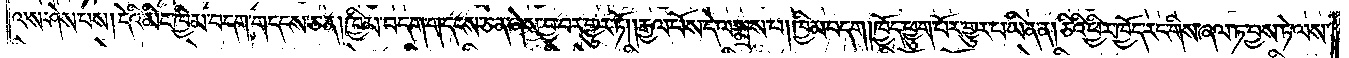ལས་ཤེས་པས། དེའི་མིང་ཁྱིམ་བདག་གདངས་ཅན། ཁྱིམ་བདག་གདངས་ཅན་ཞེས་བྱ་བར་གྱུར་ཏོ། །རྒྱལ་པོས་དེ་ལ་སྨྲས་པ། ཁྱིམ་བདག །ཁྱོད་ཕྱུག་པོར་གྱུར་པ་ཡིན་ན། ཅིའི་ཕྱིར་ཁྱོད་རང་གིས་ཞལ་ཏ་བྱས་ཏེ་ལས་
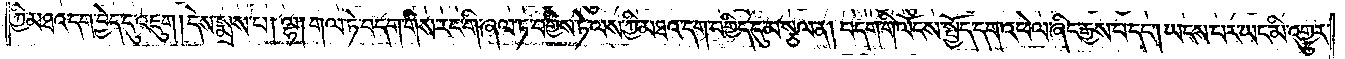ཀྱི་མཐའ་དག་བྱེད་དུ་འཇུག །དེས་སྨྲས་པ། ལྷ། གལ་ཏེ་བདག་གིས་རང་གི་ཞལ་ཏ་བགྱིས་ཏེ་ལས་ཀྱི་མཐའ་དག་བགྱིད་དུ་མ་སྩལ་ན། བདག་གི་ལོངས་སྤྱོད་དག་འཕེལ་ཞིང་རྒྱས་པ་དང༌། ཡངས་པར་ཡང་མི་འགྱུར་
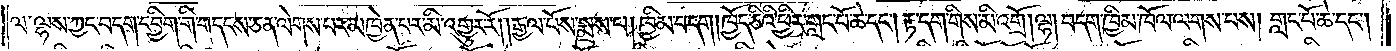ལ་ལྷས་ཀྱང་བདག་དབྱིག་གི་གདངས་ཅན་ལེགས་པར་མཁྱེན་པར་མི་འགྱུར་རོ། །རྒྱལ་པོས་སྨྲས་པ། ཁྱིམ་བདག །ཁྱོད་ཅིའི་ཕྱིར་གླང་པོ་ཆེ་དང༌། རྟ་དག་གིས་མི་འགྲོ། ལྷ། བདག་ཁྱིམ་ཁོལ་ལགས་པས། གླང་པོ་ཆེ་དང༌།
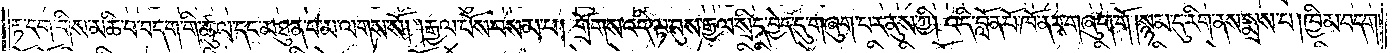རྟ་དག་གིས་མཆི་བ་བདག་གི་ཚུལ་དང་མཐུན་པ་མ་ལགས་སོ། །རྒྱལ་པོས་བསམ་པ། གྲོགས་འདི་ལྟ་བུས་རྒྱལ་སྲིད་བྱེད་དུ་གཞུག་པར་ནུས་ཀྱི། འདི་བློན་པོ་ཁོ་ནར་གཞུག་གོ །སྙམ་དུ་རིག་ནས་སྨྲས་པ། ཁྱིམ་བདག།
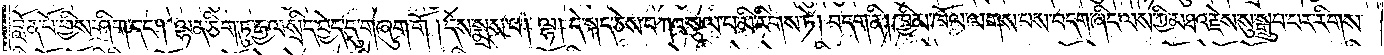བློན་པོ་གྱིས་ཤིག་དང༌། ལྷན་ཅིག་ཏུ་རྒྱལ་སྲིད་བྱེད་དུ་གཞུག་གོ །དེས་སྨྲས་པ། ལྷ། དེ་སྐད་ཅེས་བཀའ་སྩལ་པ་མི་རིགས་ཏེ། བདག་ནི། ཁྱིམ་ཁོལ་ལགས་པས་བདག་ཞིང་ལས་ཀྱི་མཐའ་རྗེས་སུ་སྒྲུབ་པར་རིགས་
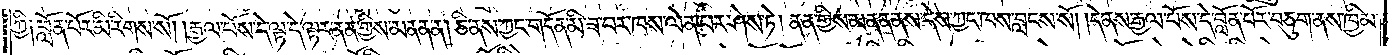ཀྱི༑ བློན་པོར་མི་རིགས་སོ། །རྒྱལ་པོས་དེ་ལྟ་དེ་ལྟར་ནན་གྱིས་མནན་ན། ཅི་ནས་ཀྱང་གདོན་མི་ཟ་བར་ཁས་ལེན་པར་ཤེས་ཏེ། ནན་གྱིས་མནན་ནས་དེས་ཀྱང་ཁས་བླངས་སོ། །དེ་ནས་རྒྱལ་པོས་དེ་བློན་པོར་བཅུག་ནས་ཁྱིམ་
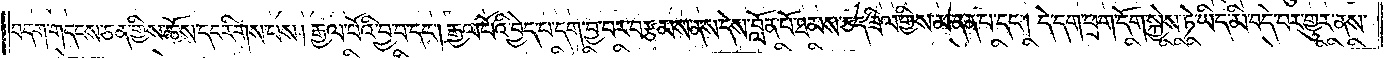བདག་གདངས་ཅན་གྱིས་ཆོས་དང་རིགས་པས། རྒྱལ་པོའི་བྱ་བ་དང༌། རྒྱལ་པོའི་བྱེད་པ་དག་བྱ་བར་བརྩམས་ནས་དེས་བློན་པོ་ཐམས་ཅད་ཟིལ་གྱིས་མནན་པ་དང༌། དེ་དག་ཕྲག་དོག་སྐྱེས་ཏེ་ཉིད་མི་བདེ་བར་གྱུར་ནས་
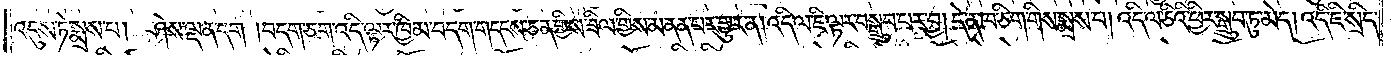འདུས་ཏེ་སྨྲས་པ། ཤེས་ལྡན་དག །བདག་ཅག་འདི་ལྟར་ཁྱིམ་བདག་གདངས་ཅན་གྱིས་ཟིལ་གྱིས་མནན་པར་གྱུར་ན། འདི་ལ་ཇི་ལྟར་བསྒྲུབ་པར་བྱ། དེ་ན་ཁ་ཅིག་གིས་སྨྲས་པ། འདི་ལ་ཅིའི་ཕྱིར་སྒྲུབ་ཏུ་མེད། འདི་ཇི་སྲིད་
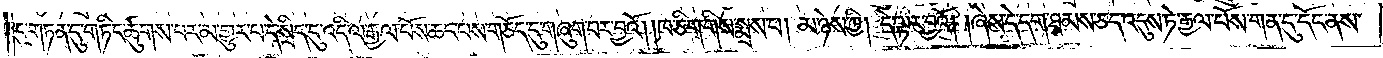དུ་གཏན་དུ་གཏིང་ཚུགས་པར་མ་གྱུར་པ་དེ་སྲིད་དུ་འདི་ལ་རྒྱལ་པོས་ཆང་པས་གཅོད་དུ་གཞུག་པར་བྱའོ། །ཁ་ཅིག་གིས་སྨྲས་པ། མ་ཉེས་ཀྱི། དེ་ལྟར་བྱའོ། །ཞེས་དེ་དག་ཐམས་ཅད་འདུས་ཏེ་རྒྱལ་པོས་གན་དུ་དོང་ནས་
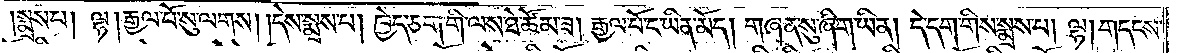སྨྲས་པ། ལྷ། རྒྱལ་པོ་སུ་ལགས། །དེས་སྨྲས་པ། ཁྱེད་ཅག་གི་ལས་ཐེ་ཚོམ་ཟ། རྒྱལ་པོར་ང་ཡིན་མོད། གཞན་སུ་ཞིག་ཡིན། དེ་དག་གིས་སྨྲས་པ། ལྷ། གདངས་
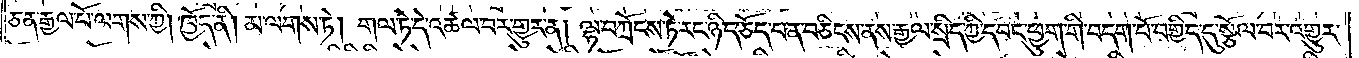ཅན་རྒྱལ་པོ་ལགས་ཀྱི། ཁྱོད་ནི། མ་ལགས་ཏེ། གལ་ཏེ་དེ་འཚལ་པར་གྱུར་ན། ལྷ་བཀྲོངས་ཏེ་རང་ཉིད་ཅོད་པན་བཅིངས་ནས་རྒྱལ་སྲིད་ཀྱི་དབང་ཕྱུག་གི་བདག་པོ་བགྱིད་དུ་སྩོལ་བར་འགྱུར་
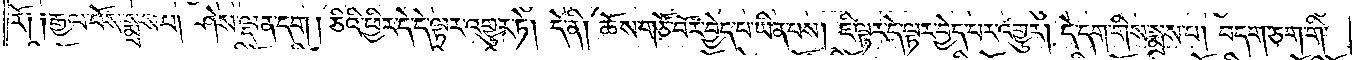རོ༑ ༑རྒྱལ་པོས་སྨྲས་པ། ཤེས་ལྡན་དག །ཅིའི་ཕྱིར་དེ་དེ་ལྟར་འགྱུར་ཏེ། དེ་ནི། ཆོས་གཙོ་བོར་བྱེད་པ་ཡིན་པས། ཇི་ལྟར་དེ་ལྟར་བྱེད་པར་འགྱུར། དེ་དག་གིས་སྨྲས་པ། བདག་ཅག་གི་
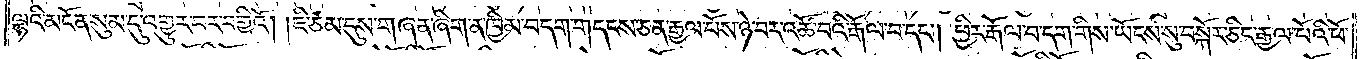ལྷའི་མངོན་སུམ་དུ་འགྱུར་བར་བགྱིའོ། །ཇི་ཙམ་དུས་གཞན་ཞིག་ན་ཁྱིམ་བདག་གདངས་ཅན་རྒྱལ་པོས་ཉེ་བར་འཚོ་བའི་རྒོལ་བ་དང༌། ཕྱིར་རྒོལ་བ་དག་གིས་ཡོངས་སུ་བསྐོར་ཅིང་རྒྱལ་པོའི་ཕོ་
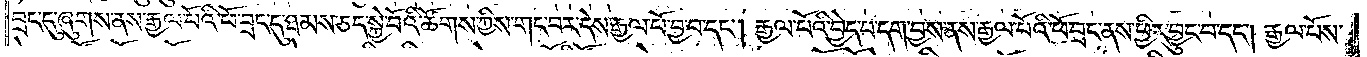བྲང་དུ་ཞུགས་ནས་རྒྱལ་པོའི་ཕོ་བྲང་དུ་ཐམས་ཅད་སྐྱེ་བོའི་ཚོགས་ཀྱིས་གང་བར་དེས་རྒྱལ་པོ་བྱ་བ་དང༌། རྒྱལ་པོའི་བྱེད་པ་དག་བྱས་ནས་རྒྱལ་པོའི་ཕོ་བྲང་ནས་ཕྱིར་བྱུང་བ་དང༌། རྒྱལ་པོས་
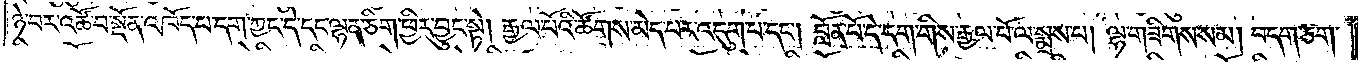ཉེ་བར་འཚོ་བ་སྔོན་འཁོད་པ་དག་ཀྱང་དེ་དང་ལྷན་ཅིག་ཕྱིར་བྱུང་སྟེ། རྒྱལ་པོའི་ཚོགས་མེད་པར་འདུག་པ་དང༌། བློན་པོ་དེ་དག་གིས་རྒྱལ་པོ་ལ་སྨྲས་པ། ལྷ་གཟིགས་སམ། བདག་ཅག་
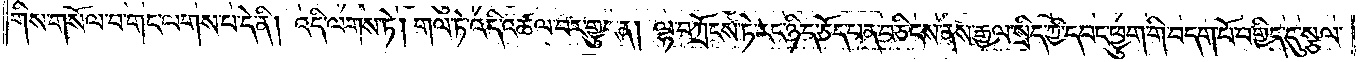གིས་གསོལ་བ་གང་ལགས་པ་དེ་ནི། འདི་ལགས་ཏེ། གལ་ཏེ་འདི་འཚལ་བར་གྱུར་ན། ལྷ་བཀྲོངས་ཏེ་རང་ཉིད་ཅོད་པན་བཅིངས་ནས་རྒྱལ་སྲིད་ཀྱི་དབང་ཕྱུག་གི་བདག་པོ་བགྱིད་དུ་སྩལ་
